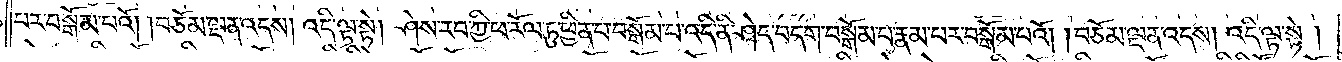པར་བསྒོམ་པའོ། བཅོམ་ལྡན་འདས། འདི་ལྟ་སྟེ། ཤེས་རབ་ཀྱི་ཕ་རོལ་ཏུ་ཕྱིན་པ་བསྒོམ་པ་འདི་ནི་ཤེད་བདག་བསྒོམ་པ་རྣམ་པར་བསྒོམ་པའོ། །བཅོམ་ལྡན་འདས། འདི་ལྟ་སྟེ།
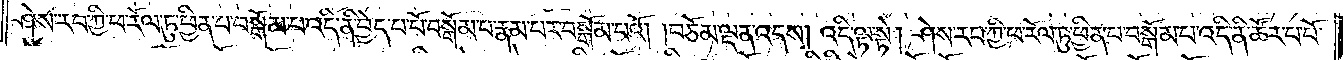ཤེས་རབ་ཀྱི་ཕ་རོལ་ཏུ་ཕྱིན་པ་བསྒོམ་པ་འདི་ནི་བྱེད་པ་པོ་བསྒོམ་པ་རྣམ་པར་བསྒོམ་པའོ། །བཅོམ་ལྡན་འདས། འདི་ལྟ་སྟེ། ཤེས་རབ་ཀྱི་ཕ་རོལ་ཏུ་ཕྱིན་པ་བསྒོམ་པ་འདི་ནི་ཚོར་པ་པོ་
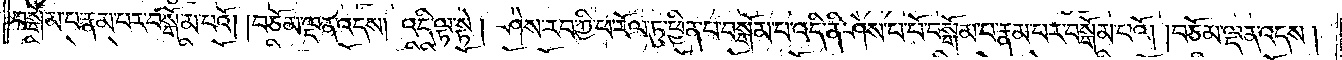བསྒོམ་པ་རྣམ་པར་བསྒོམ་པའོ། །བཅོམ་ལྡན་འདས། འདི་ལྟ་སྟེ། ཤེས་རབ་ཀྱི་ཕ་རོལ་ཏུ་ཕྱིན་པ་བསྒོམ་པ་འདི་ནི་ཤེས་པ་པོ་བསྒོམ་པ་རྣམ་པར་བསྒོམ་པའོ། །བཅོམ་ལྡན་འདས་
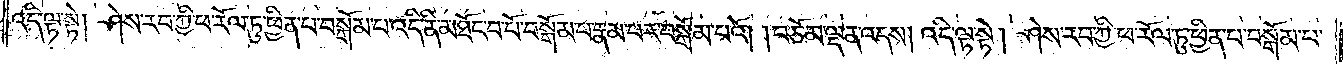འདི་ལྟ་སྟེ། ཤེས་རབ་ཀྱི་ཕ་རོལ་ཏུ་ཕྱིན་པ་བསྒོམ་པ་འདི་ནི་མཐོང་བ་པོ་བསྒོམ་པ་རྣམ་པར་བསྒོམ་པའོ། །བཅོམ་ལྡན་འདས། འདི་ལྟ་སྟེ། ཤེས་རབ་ཀྱི་ཕ་རོལ་ཏུ་ཕྱིན་པ་བསྒོམ་པ་
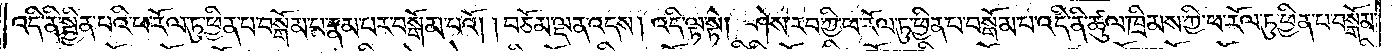འདི་ནི་སྦྱིན་པའི་ཕ་རོལ་ཏུ་ཕྱིན་པ་བསྒོམ་པ་རྣམ་པར་བསྒོམ་པའོ། །བཅོམ་ལྡན་འདས། འདི་ལྟ་སྟེ། ཤེས་རབ་ཀྱི་ཕ་རོལ་ཏུ་ཕྱིན་པ་བསྒོམ་པ་འདི་ནི་ཚུལ་ཁྲིམས་ཀྱི་ཕ་རོལ་ཏུ་ཕྱིན་པ་བསྒོམ་
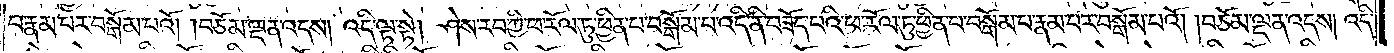པ་རྣམ་པར་བསྒོམ་པའོ། །བཅོམ་ལྡན་འདས། འདི་ལྟ་སྟེ། ཤེས་རབ་ཀྱི་ཕ་རོལ་ཏུ་ཕྱིན་པ་བསྒོམ་པ་འདི་ནི་བཟོད་པའི་ཕ་རོལ་ཏུ་ཕྱིན་པ་བསྒོམ་པ་རྣམ་པར་བསྒོམ་པའོ། །བཅོམ་ལྡན་འདས། འདི་
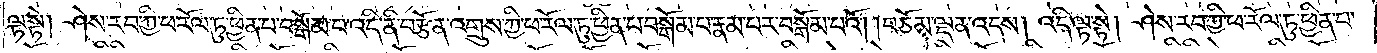ལྟ་སྟེ། ཤེས་རབ་ཀྱི་ཕ་རོལ་ཏུ་ཕྱིན་པ་བསྒོམ་པ་འདི་ནི་བརྩོན་འགྲུས་ཀྱི་ཕ་རོལ་ཏུ་ཕྱིན་པ་བསྒོམ་པ་རྣམ་པར་བསྒོམ་པའོ། །བཅོམ་ལྡན་འདས། འདི་ལྟ་སྟེ། ཤེས་རབ་ཀྱི་ཕ་རོལ་ཏུ་ཕྱིན་པ་
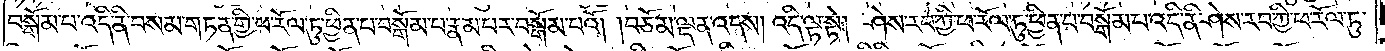བསྒོམ་པ་འདི་ནི་བསམ་གཏན་གྱི་ཕ་རོལ་ཏུ་ཕྱིན་པ་བསྒོམ་པ་རྣམ་པར་བསྒོམ་པའོ། །བཅོམ་ལྡན་འདས། འདི་ལྟ་སྟེ། ཤེས་རབ་ཀྱི་ཕ་རོལ་ཏུ་ཕྱིན་པ་བསྒོམ་པ་འདི་ནི་ཤེས་རབ་ཀྱི་ཕ་རོལ་ཏུ་
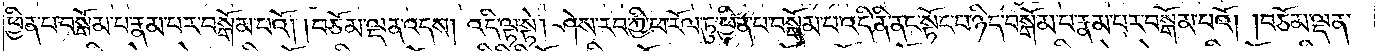།ཕྱིན་པ་བསྒོམ་པ་རྣམ་པར་བསྒོམ་པའོ། །བཅོམ་ལྡན་འདས། འདི་ལྟ་སྟེ། ཤེས་རབ་ཀྱི་ཕ་རོལ་ཏུ་ཕྱིན་པ་བསྒོམ་པ་འདི་ནི་ནང་སྟོང་པ་ཉིད་བསྒོམ་པ་རྣམ་པར་བསྒོམ་པའོ། །བཅོམ་ལྡན་
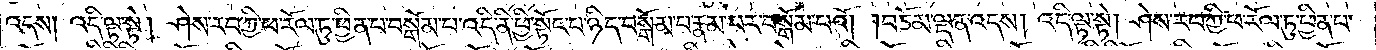འདས། འདི་ལྟ་སྟེ། ཤེས་རབ་ཀྱི་ཕ་རོལ་ཏུ་ཕྱིན་པ་བསྒོམ་པ་འདི་ནི་ཕྱི་སྟོང་པ་ཉིད་བསྒོམ་པ་རྣམ་པར་བསྒོམ་པའོ། །བཅོམ་ལྡན་འདས། འདི་ལྟ་སྟེ། ཤེས་རབ་ཀྱི་ཕ་རོལ་ཏུ་ཕྱིན་པ་
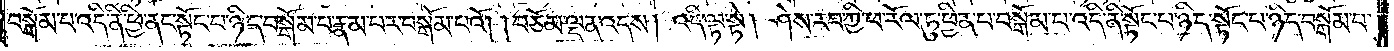བསྒོམ་པ་འདི་ནི་ཕྱི་ནང་སྟོང་པ་ཉིད་བསྒོམ་པ་རྣམ་པར་བསྒོམ་པའོ། །བཅོམ་ལྡན་འདས། འདི་ལྟ་སྟེ། ཤེས་རབ་ཀྱི་ཕ་རོལ་ཏུ་ཕྱིན་པ་བསྒོམ་པ་འདི་ནི་སྟོང་པ་ཉིད་སྟོང་པ་ཉིད་བསྒོམ་པ་
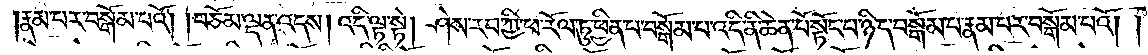རྣམ་པར་བསྒོམ་པའོ། །བཅོམ་ལྡན་འདས། འདི་ལྟ་སྟེ། ཤེས་རབ་ཀྱི་ཕ་རོལ་ཏུ་ཕྱིན་པ་བསྒོམ་པ་འདི་ནི་ཆེན་པོ་སྟོང་པ་ཉིད་བསྒོམ་པ་རྣམ་པར་བསྒོམ་པའོ། །
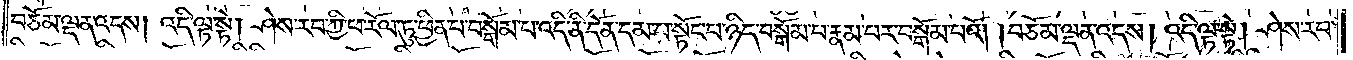བཅོམ་ལྡན་འདས། འདི་ལྟ་སྟེ། ཤེས་རབ་ཀྱི་ཕ་རོལ་ཏུ་ཕྱིན་པ་བསྒོམ་པ་འདི་ནི་དོན་དམ་པ་སྟོང་པ་ཉིད་བསྒོམ་པ་རྣམ་པར་བསྒོམ་པའོ། །བཅོམ་ལྡན་འདས། འདི་ལྟ་སྟེ། ཤེས་རབ་
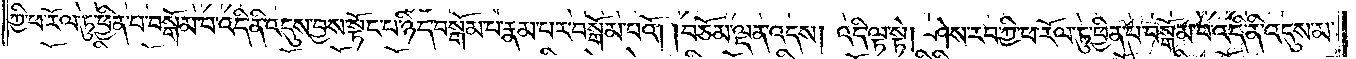ཀྱི་ཕ་རོལ་ཏུ་ཕྱིན་པ་བསྒོམ་པ་འདི་ནི་འདུས་བྱས་སྟོང་པ་ཉིད་བསྒོམ་པ་རྣམ་པར་བསྒོམ་པའོ། །བཅོམ་ལྡན་འདས། འདི་ལྟ་སྟེ། ཤེས་རབ་ཀྱི་ཕ་རོལ་ཏུ་ཕྱིན་པ་བསྒོམ་པ་འདི་ནི་འདུས་མ་
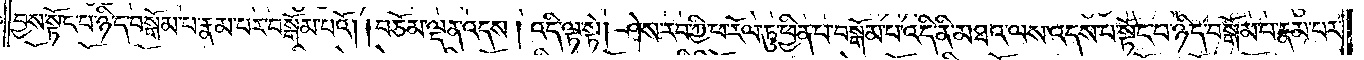བྱས་སྟོང་པ་ཉིད་བསྒོམ་པ་རྣམ་པར་བསྒོམ་པའོ། །བཅོམ་ལྡན་འདས། འདི་ལྟ་སྟེ། ཤེས་རབ་ཀྱི་ཕ་རོལ་ཏུ་ཕྱིན་པ་བསྒོམ་པ་འདི་ནི་མཐའ་ལས་འདས་པ་སྟོང་པ་ཉིད་བསྒོམ་པ་རྣམ་པར་
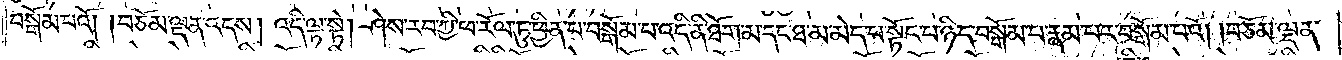བསྒོམ་པའོ། །བཅོམ་ལྡན་འདས། འདི་ལྟ་སྟེ། ཤེས་རབ་ཀྱི་ཕ་རོལ་ཏུ་ཕྱིན་པ་བསྒོམ་པ་འདི་ནི་ཐོག་མ་དང་ཐ་མ་མེད་པ་སྟོང་པ་ཉིད་བསྒོམ་པ་རྣམ་པར་བསྒོམ་པའོ། །བཅོམ་ལྡན་
